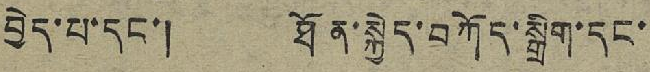བྱེད་པ་དང་། ཐོན་སྐྱེད་བཀོད་སྒྲིག་དང་
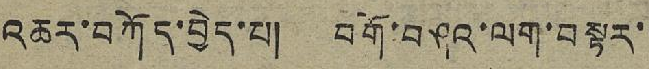འཆར་བཀོད་བྱེད་པ། བགོ་བཤའ་ལག་བསྟར་
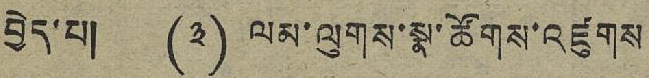བྱེད་པ། (༣) ལམ་ལུགས་སྣ་ཚོགས་འཛུགས
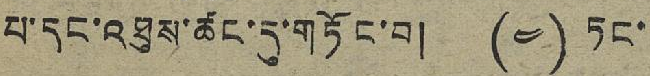པ་དང་འཐུས་ཚང་དུ་གཏོང་བ། (༤) ཏང་
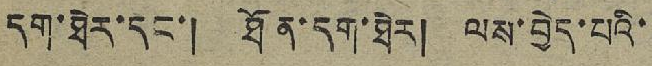དག་ཐེར་དང་། ཐོན་དག་ཐེར། ལས་བྱེད་པའི་
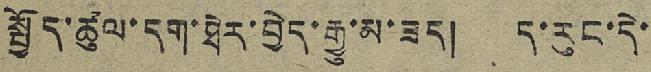སྤྱོད་ཚུལ་དག་ཐེར་བྱེད་རྒྱུ་མ་ཟད། ད་རུང་དེ་
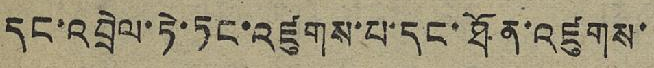དང་འབྲེལ་ཏེ་ཏང་འཛུགས་པ་དང་ཐོན་འཛུགས་
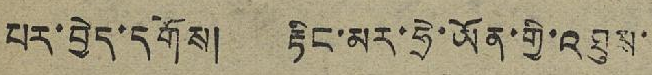པར་བྱེད་དགོས། རྟིང་མར་ཧྲེ་ཡོན་གྱི་འཐུས་
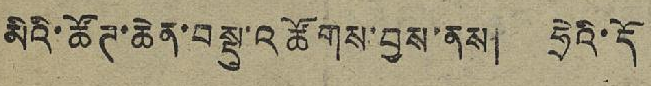མིའི་ཚོཊ་ཆེན་བསྡུ་འཚོགས་བྱས་ནས། ཧྲེའི་དོ
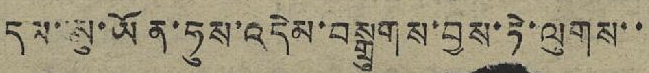དམ་ཨུ་ཡོན་ཧུས་འདེམ་བསྒྲུགས་བྱས་ཏེ་ལུགས་་
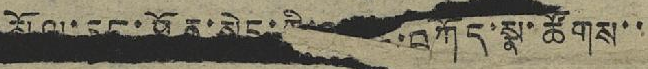སྲོལ་དང་ཐོན་སྐྱེད་ཀྱི་འཆར་བཀོད་སྣ་ཚོགས་་
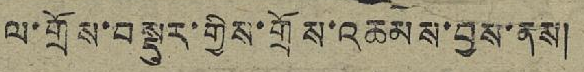ལ་གྲོས་བསྡུར་གྱིས་གྲོས་འཆམས་བྱས་ནས།
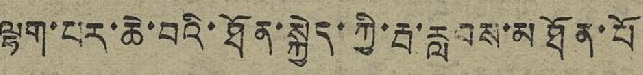ལྷག་པར་ཆེ་བའི་ཐོན་སྐྱེད་ཀྱི་རྦ་རླབས་མཐོན་པོ
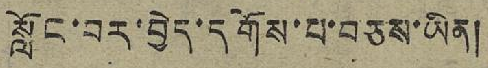སློང་བར་བྱེད་དགོས་པ་བཅས་ཡིན།
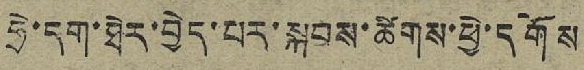ཧྲེ་དག་ཐེར་བྱེད་པར་སྐབས་ཚིགས་ཕྱེ་དགོས
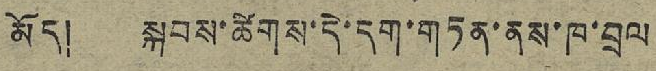མོད། སྐབས་ཚིགས་དེ་དག་གཏན་ནས་ཁ་བྲལ
